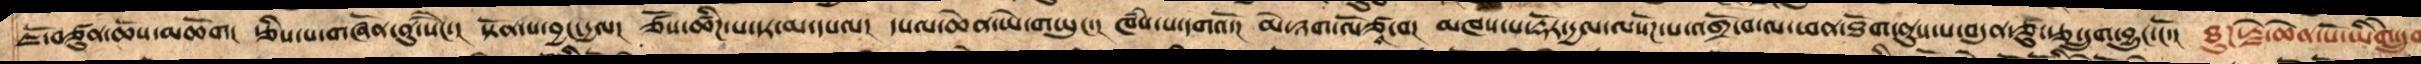ཇོ་བཙུན་ཆོས་མཆོག།  རྩིས་པ་གཞོན་ནུ་སཻང་། སྟོན་པ་བྱང་དྱལ།  ཙོས་ཚིཌ་པ་དར་མ་དཔལ།  དཔལ་ཆེན་ཡེ་གཡུང་།  ཁཾས་པ་དགའོ།  མི་ཉག་ལོཙཱ་བ། མཁས་པ་རྡོར་དྱལ་ལསོཌ་པ་འགྲོ་བ་ལ་ཕན་ཐོག་ནུས་པ་བདུན་ཅུ་རྩ་དྲུག་བྱུང་ངོ་།  ཐུཌ་རྗེ་ཆེན་པོ་ཡིགེ་དྲུག
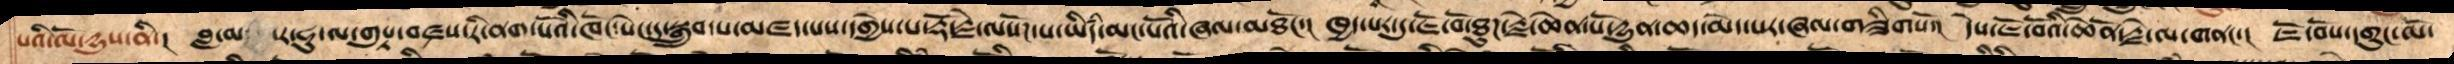པའི་ལོ་དྱུས་ནི།  བླ་མ་ར་ཧུ་ལ་གུཔྟ་བཛྲས་རི་ནག་པོའི་ཁོང་སེང་དུ་སྒྲུབ་པ་མཛད་པས་དགྱེས་པ་རྡོ་རྗེ་ལསོཌ་པ་ཡིདཾ་མང་པོའི་ཞལ་མཐོང་།  ཁྱད་པར་དུ་ཇོ་བོ་ཐུཌ་རྗེ་ཆེན་པོ་དྱུན་ཆད་མེད་པར་ཞལ་གཟིགསོ།  དེས་ཇོ་བོའི་ཆེནོ་རྗེ་ལ་གནང་།  ཇོ་བོས་དགུང་ལོ་
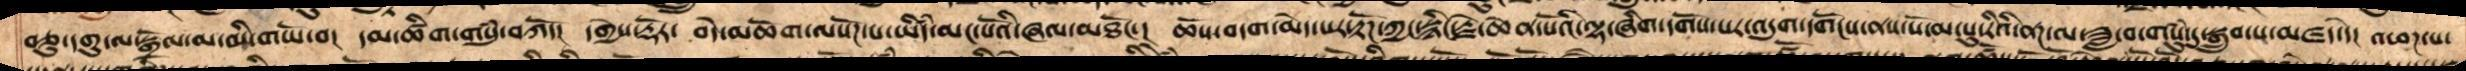བཅུ་དགུ་ལ་སྒྲོལ་མ་མི་གཡོ་བ།  དམ་ཚིག་གསུཾ་བཀོད།  དགྱེས་རྡོར།  བདེ་མཆོག་ལསོཌ་པའི་ཡིདཾ་མང་པོའི་ཞལ་མཐོང་།  ཆོས་བདག་མེད་པར་རྟོཌ་ཀྱང་སྙིང་རྗེ་ཆེན་པོའི་ལྷ་ཞིག་དགོས་པར་འདུག་དགོངས་ནས་སོ་མ་པུ་རིའི་ནཌ་ལ་ཟླ་བ་གསུཾ་དུ་སྒྲུབ་པ་མཛད་དེ།  འཕཌ་པ་
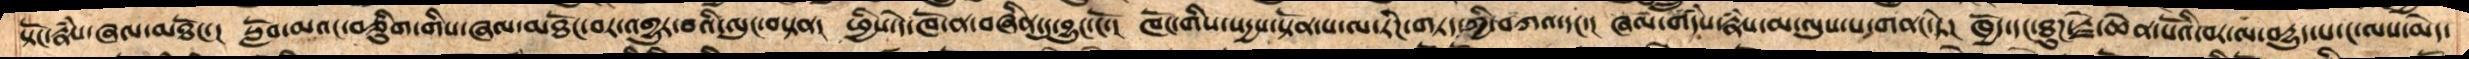སྟོང་རྣཾས་ཞལ་མཐོང་།  སློབ་མའང་བཅིུག་གིས་ཞལ་མཐོང་བར་འགྱུར་བའི་ལུང་བསྟན།  ཕྱིས་དེ་ཁོ་ན་བཞིན་དུ་བྱུང་ངོ་།  ཁོང་གིས་སདྱས་སྟོན་པ་ལ་རིཌ་གཏད་ཀྱི་བཀའ་དང།  ཞལ་གདཾས་རྣཾས་མ་ལུས་པར་གནང་ཏེ།  ཁྱོད་དང་ཐུཌ་རྗེ་ཆེན་པོའི་བར་ལ་བདྱུད་པ་ང་ལས་མེད་
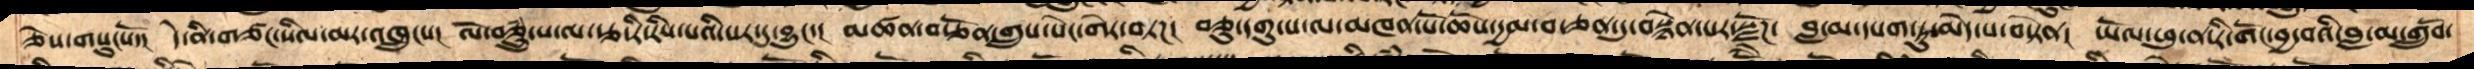ཅེས་གསུངསོ་།  དེ་ནི་གཙང་སིལ་མར་འཁྲུངས།  ལོ་བཅྲུཾ་པ་ལ་རྩ་རི་རིས་པའི་སར་དུ་བྱུང་།  མཚན་བརྩོན་གྲུས་སེང་གེར་བཏཌ།  བཅུ་དགུ་པ་ལ་མཁན་པོ་ཆོས་དྱལ་བ་ཅན་དུ་བསྙེན་པར་སྫོཌ།  བླ་མ་དཔག་ཏུ་མེད་པ་བསྟེན།  ཡོལ་ཕུ་ན་རི་གོང་བྱ་བའི་བླ་མ་གྲུབོ་
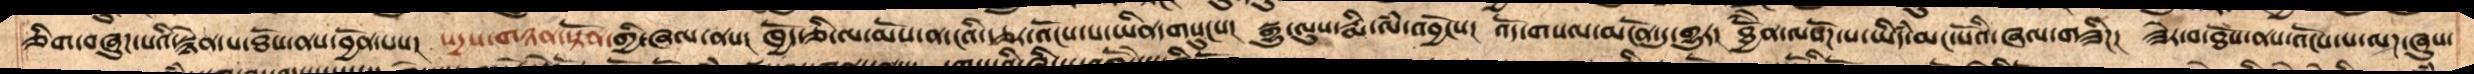ཅིག་བཞུཌ་པའི་སྙེན་པ་ཐོས་ནས་བྱོན་པས།  སདྱས་གཉན་སྟོན་གྱི་ཞལ་ནས།  ཁྱོད་ཅི་ལ་མོས་ནས་ངའི་རྩར་འོངས་པ་ཡིན་གསུངས།  སྒྱུ་ལུས་རྨི་ལཾ་འབྱོངས།  འོད་གསལ་མངོན་དུ་གྱུར།  ཐྱོེིན་ལསོཌ་པའི་ཡིདཾ་མང་པོའི་ཞལ་གཟིཌ།  ཟེར་བ་ཐོས་ནས་འོངས་པ་ལཌ་ཞུས་
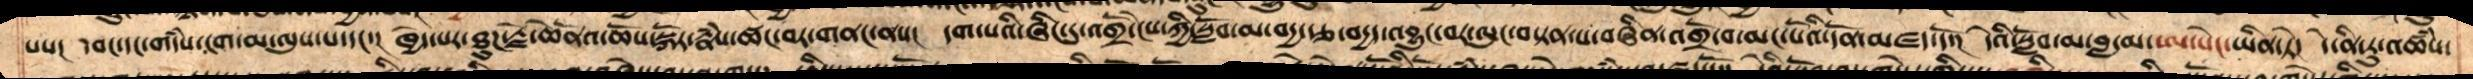པས།  དབང་དང་གདཾས་ངག་མ་ལུས་པ་དང་།  ཁྱེད་པར་ཐུཌ་རྗེ་ཆེནོའ་ཆོས་སྐོར་རྣཾས་ཚང་བར་གནང་ནས།  དག་པའི་ཞིང་དུ་འགྲོ་ངེས་ཀྱི་སློབ་མ་བདྱ་རྩ་བདྱད་འབྱུང་བར་ལུང་བསྟན་པ་བཞིན་འགྲོ་བ་མང་པོའི་དོན་མཛད་དོ།  དེའི་སློབ་མ་བླ་མ་ཨ་སེང་ཡིན་ཏེ།  དེ་ནི་རུ་འཚཾས་
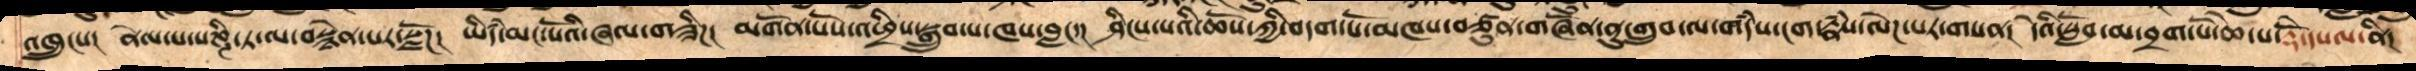འཁྲུངས། ནེལ་པ་པཎྚི་ཏ་ལ་བསྙེན་པར་སྫོཌ།  ཡིདཾ་མང་པོའི་ཞལ་གཟིཌ།  མགོན་པོས་འཕྲིས་སྒྲུབ་པ་ཁས་བླང་།  ཤིངས་པའི་ཆོས་ཀྱི་བདག་པོ་མཁས་བཙུན་གཞོན་ནུ་གྲུབ་ལ་གདཾས་ངག་རྣཾས་ལེཌ་པར་གསན།  དེའི་སློབ་མ་བྲག་པོ་ཆེ་པ་རྡོེ་དཔལ་ནི།
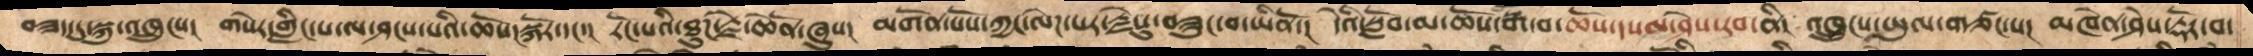བཟད་དུ་སྐུ་འཁྲུངས།  གསེར་གླིང་པ་ལ་ཤངས་པའི་ཆོས་སྐོར་དང་།  རོང་པའི་ཐུཌ་རྗེ་ཆེན་པོ་ཞུས།  མགོན་པོས་ཀྱང་ལེཌ་པར་རྗེསུ་བཟུང་བ་ཡིནོ་།  དེའི་སློབ་མ་ཆོས་སྒ་བ་ཆོས་དཔལ་ཤེས་རབ་ནི། འཁྲུངས་ཡུལ་གཙང་པ། མཁེན་ཤེས་རྡོར་བ་
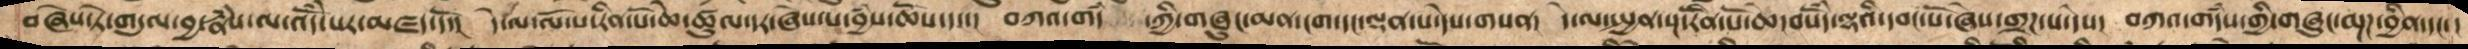བཞེས་ཏེ་གདུལ་བྱ་རྣཾས་ལ་འདོཾ་པར་མཛད་དོ་།  དེ་ལ་ལོ་པ་རིན་པོ་ཆེ་ཚུལ་དར་ཞེས་པ་བྱཾས་ཆོས་དང་།  བཀའ་གདཾ  ་ཀྱི་གཞུང་མན་ངག་དང་ལྡན་པ་དེས་གསན།  དེ་ལ་སྤྱན་སྔ་རིནོ་པོ་ཆེ་བསོདཾ་ལྷའི་དབང་པོ་ཞེས་གྲཌ་པ་དེས།  བཀའ་གདཾས་གྱི་གཞུང་མྔཌ་བྱིན་དང་
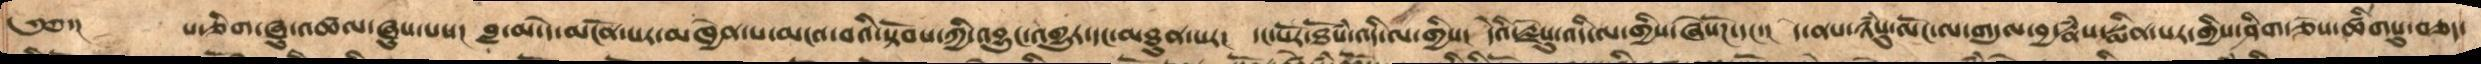༄༅་།     པ་ཅིག་ཞུ་འཚལ་ཞུས་པས།  བླ་མ་དེ་མངོན་པར་མཁྱེན་པ་མངའ་བའི་སྟོབས་ཀྱི་འབྱུང་འགྱུར་དང་མཐུན་པར།  དང་པོར་ཐོསཾ་འདི་ལ་གྱིས།  དེའི་རྗེསུ་འདི་ལ་གྱིས་ཞེསོཌ་དང་།  དེ་ནས་ཉཾསུ་ལོང་ལ་གདུལ་བྱ་རྣཾས་སྨིན་པར་གྱིས་ཤིག་ཅེས་ཚིགསུ་བཅད་
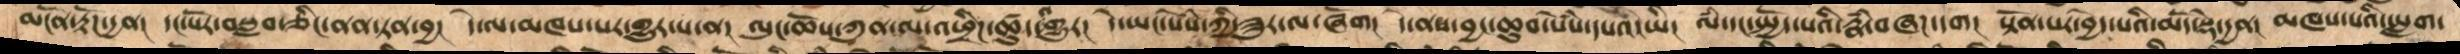མངོན་རྟོཌ་དྱན།  དང་པོར་བསླབ་ཅིང་ནན་ཏན་བྱ།  དེ་ལ་མཁས་པར་གྱུར་པ་ན།   ལུང་ཆོས་ཀུན་ལ་འཕྲིཌ་ཚུད་གྱུར།   དེ་ཡང་སེཾས་ཀྱི་ཟུར་ལ་ཞོག།  དེ་ནས་བྱང་ཆུབ་སེཾས་དཔའ་ཡི།  ལཾ་དང་སྤྱོད་པའི་རྣཾ་བཞཌ་དག།  སྟོན་པར་བྱེད་པའི་མདོ་སྡེ་དྱན།   མཁས་པའི་ཡླག་
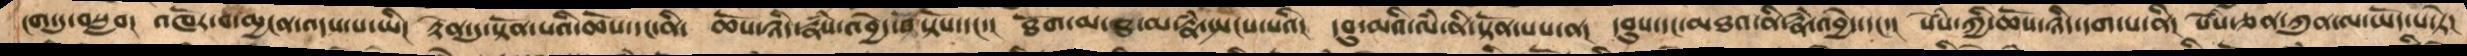ངག་དུ་བསླབ།   འཁོར་བ་མྱངན་འདས་པ་ཡི།  རྟེན་དུ་སྟོན་པའི་ཆོས་དང་ནི།  ཆོས་ཉིད་རྣཾས་འབྱེད་བསྟོས་དང་།  ཐོག་མ་ཐ་མ་རྣཾ་སྤངས་པའི།  དབུ་མའི་ལཾ་ནི་སྟོན་པས་ན།  དབུས་དང་མཐའ་ནི་རྣཾ་འབྱེད་དང་།  སེཾས་ཀྱི་ཆོས་ཉིད་དག་པ་ནི།   སེཾས་ཅན་ཀུན་ལ་ཡོད་པ་ཏེ།
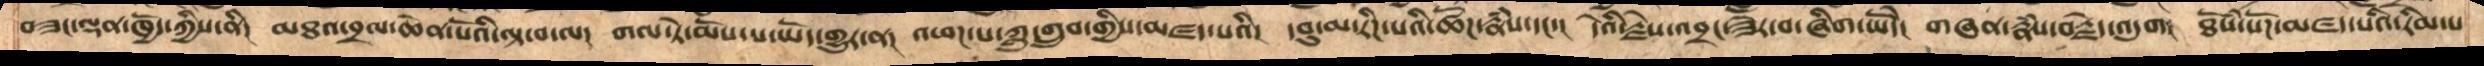བཟང་ལྡན་ཁྱོད་ཀྱིས་ནི།  མཐའ་བྲལ་ཆེན་པོའི་ལྟ་བ་ལ།  གལ་ཏེ་མོས་པ་ཡོད་གྱུར་ན།  འཕཌ་པ་ཀླུ་གྲུབ་གྱིས་མཛད་པའི།  དབུ་མ་རིཌ་པའི་ཚོཌ་རྣཾས་དང་།  དེའི་རྗེས་འབྲང་ཟེར་བ་ཞིག་ཡོདེ།  གཞན་རྣཾས་བརྗེད་འདུག།  ཐོསཾ་སོཌ་མཛད་པའི་རིམ་པ
